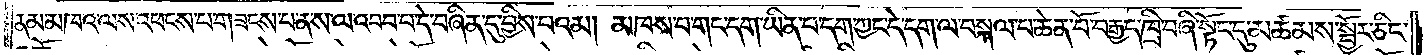ནམ་མཁའ་ལས་འཕངས་པ་གཟངས་པ་ན་ས་ལ་འབབ་པ་དེ་བཞིན་དུ་བྱིས་པའམ། མཁས་པ་གང་དག་ཡིན་པ་དག་ཀྱང་དེ་དག་ལ་བསྐལ་པ་ཆེན་པོ་བརྒྱད་ཁྲི་བཞི་སྟོང་དུ་མཚམས་སྦྱོར་ཅིང་
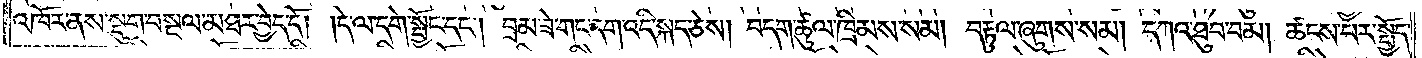འཁོར་ན་སྡུག་བསྔལ་མཐར་བྱེད་དོ། །དེ་ལ་དགེ་སྦྱོང་དང༌། བྲམ་ཟེ་གང་དག་འདི་སྐད་ཅེས། བདག་ཚུལ་ཁྲིམས་སམ། བརྟུལ་ཞུགས་སམ། དཀའ་ཐུབ་བམ། ཚངས་པར་སྤྱོད་
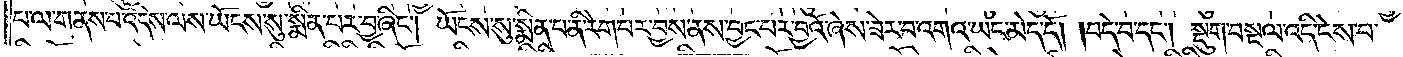པ་ལ་གནས་པ་འདིས་ལས་ཡོངས་སུ་སྨིན་པར་བྱ་ཞིང༌། ཡོངས་སུ་སྨིན་པ་ནི་རེག་པར་བྱས་ནས་བྱང་པར་བྱའོ་ཞེས་ཟེར་བ་འགའ་ཡང་མེད་དོ། །བདེ་བ་དང༌། སྡུག་བསྔལ་འདི་ངེས་པ་
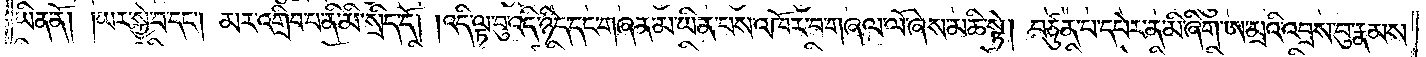ཡིན་ནོ། །ཡར་སྐྱེ་བ་དང༌། མར་འགྲིབ་པ་ནི་མི་སྲིད་དོ། །འདི་ལྟ་བུ་འདི་ཉིད་དང་གཞན་མ་ཡིན་པས་འཁོར་བ་གཞལ་ལོ་ཞེས་མཆི་སྟེ། བཙུན་པ་དཔེར་ན་མི་ཞིག་ཨ་མྲའི་འབྲས་བུ་རྣམས་
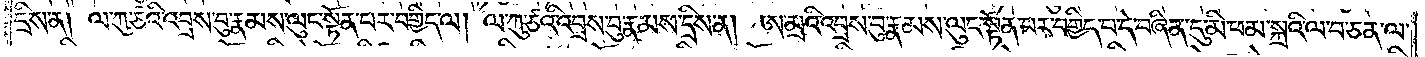དྲིས་ན། ལ་ཀུ་ཙའི་འབྲས་བུ་རྣམས་ལུང་སྟོན་པར་བགྱིད་ལ། ལ་ཀུ་ཙའི་འབྲས་བུ་རྣམས་དྲིས་ན། ཨ་མྲའི་འབྲས་བུ་རྣམས་ལུང་སྟོན་པར་བགྱིད་པ་དེ་བཞིན་དུ་མི་ཕམ་སྐྲའི་ལ་བ་ཅན་ལ་
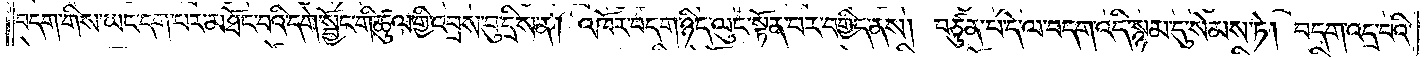བདག་གིས་ཡང་དག་པར་མཐོང་བའི་དགེ་སྦྱོང་གི་ཚུལ་གྱི་འབྲས་བུ་དྲིས་ན། འཁོར་བདག་ཉིད་ལུང་སྟོན་པར་བགྱིད་ནས། བཙུན་པ་དེ་ལ་བདག་འདི་སྙམ་དུ་སེམས་ཏེ། བདག་འདྲ་བའི་
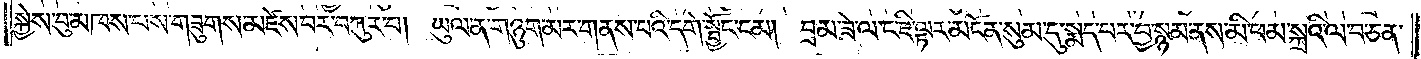སྐྱེས་བུ་མཁས་པས་གཟུགས་མཛེས་པར་བཀུར་བ། ཡུལ་ན་གཉུག་མར་གནས་པའི་དགེ་སྦྱོང་ངམ། བྲམ་ཟེ་ལ་ང་ཇི་ལྟར་མངོན་སུམ་དུ་སྨད་པར་བྱ་སྙམ་ནས་མི་ཕམ་སྐྲའི་ལ་བ་ཅན་
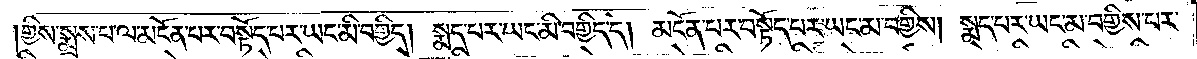གྱིས་སྨྲས་པ་ལ་མངོན་པར་བསྟོད་པར་ཡང་མི་བགྱིད། སྨད་པར་ཡང་མི་བགྱིད་དེ། མངོན་པར་བསྟོད་པར་ཡང་མ་བགྱིས། སྨད་པར་ཡང་མ་བགྱིས་པར་
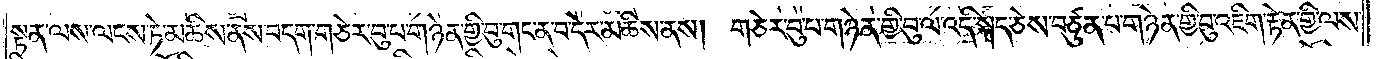སྟན་ལས་ལངས་ཏེ་མཆིས་ནས་བདག་གཅེར་བུ་པ་གཉེན་གྱི་བུ་གང་ན་བ་དེར་མཆིས་ནས། གཅེར་བུ་གཉེན་གྱི་བུ་ལ་འདི་སྐད་ཅེས་བཙུན་པ་གཉེན་གྱི་བུ་འཇིག་རྟེན་གྱི་ལས་
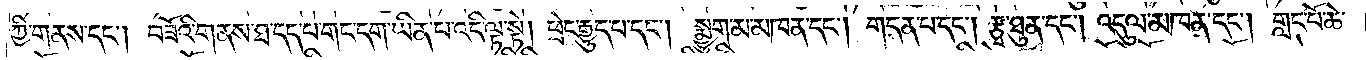ཀྱི་གནས་དང༌། བཟོའི་གནས་ཐ་དད་པ་གང་དག་ཡིན་པ་འདི་ལྟ་སྟེ། ཕྲེང་རྒྱུད་པ་དང༌། སྨྱུག་མ་མཁན་དང༌། གདན་པ་དང༌། རྩྭ་ཐུན་དང༌། འདུལ་མཁན་དང༌། གླང་པོ་ཆེ་
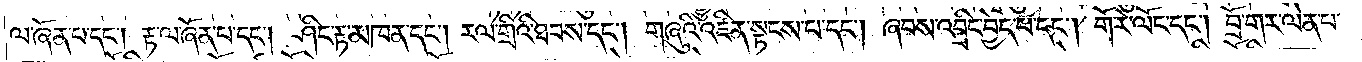ལ་ཞོན་པ་དང༌། རྟ་ལ་ཞོན་པ་དང༌། ཤིང་རྟ་མཁན་དང༌། རལ་གྲིའི་ཐབས་དང༌། གཞུའི་འཛིན་སྟངས་པ་དང༌། ཞབས་འབྲིང་བྱེད་པ་དང༌། གོ་རེ་ལོང་དང༌། བྲོ་གར་ལེན་པ་
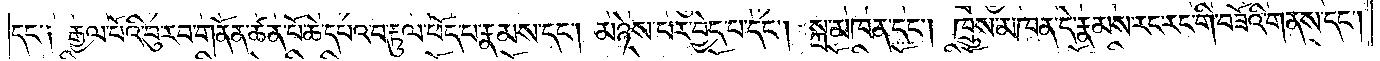དང་༑ རྒྱལ་པོའི་བུ་རབ་གནོན་ཚན་པོ་ཆེ་དཔའ་བ་རྟུལ་ཕོད་པ་རྣམས་དང༌། མཉེས་པར་བྱེད་པ་དང༌། སྐྲ་མཁན་དང༌། ཁྲུས་མཁན་དེ་རྣམས་རང་རང་གི་བཟོའི་གནས་དང༌།
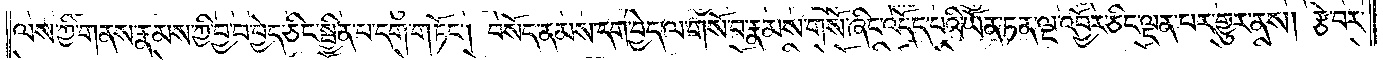ལས་ཀྱི་གནས་རྣམས་ཀྱི་བྱ་བ་བྱེད་ཅིང་སྦྱིན་པ་དག་གཏོང༌། བསོད་ནམས་དག་བྱེད་ལ་གསོ་བ་རྣམས་གསོ་ཞིང་འདོད་པའི་ཡོན་ཏན་ལྔ་འབྱོར་ཅིང་ལྡན་པར་གྱུར་ནས། རྩེ་བར་
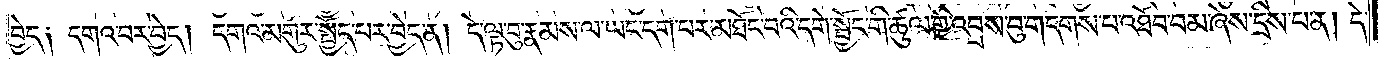བྱེད། དགའ་བར་བྱེད། དགའ་མགུར་སྤྱོད་པར་བྱེད་ན། དེ་ལྟ་བུ་རྣམས་ལ་ཡང་དག་པར་མཐོང་བའི་དགེ་སྦྱོང་གི་ཚུལ་གྱི་འབྲས་བུ་གདགས་པ་འཐོབ་བམ་ཞེས་དྲིས་པ་ན། དེ་
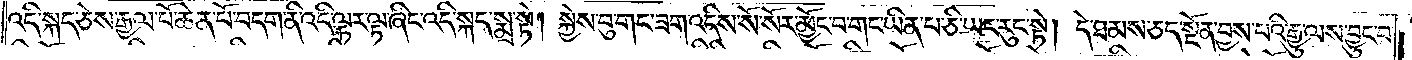འདི་སྐད་ཅེས་རྒྱལ་པོ་ཆེན་པོ་བདག་ནི་འདི་ལྟར་ལྟ་ཞིང་འདི་སྐད་སྨྲ་སྟེ། སྐྱེས་བུ་གང་ཟག་འདིས་སོ་སོར་མྱོང་བ་གང་ཡིན་པ་ཅི་ཡང་རུང་སྟེ། དེ་ཐམས་ཅད་སྔོན་བྱས་པའི་རྒྱུ་ལས་བྱུང་བ་
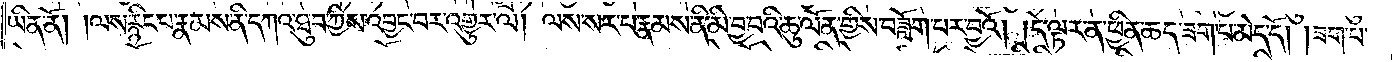ཡིན་ནོ། །ལས་རྙིང་པ་རྣམས་ནི་དཀའ་ཐུབ་ཀྱིས་འབྱང་བར་འགྱུར་ལ། ལས་སར་པ་རྣམས་ནི་མི་བྱ་བའི་ཆུ་ལོན་གྱིས་བཟློག་པར་བྱའོ། །དེ་ལྟར་ན་ཕྱིན་ཆད་ཟག་པ་མེད་དོ། །ཟག་པ་
